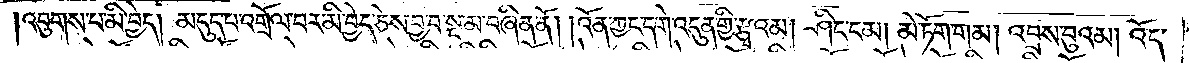འབུགས་པ་མི་བྱེད། མདུད་པ་འགྲོལ་བར་མི་བྱེད་ཅེས་བྱ་བ་སྔ་མ་བཞིན་ནོ། །འོན་ཀྱང་དགེ་འདུན་གྱི་རྩྭའམ། ཤིང་ངམ། མེ་ཏོག་གམ། འབྲས་བུའམ། འོད་
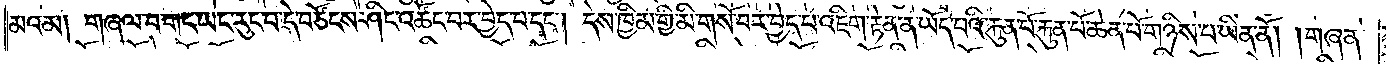མའམ། གཞལ་བ་གང་ཡང་རུང་བ་དེ་བཙོངས་ཤིང་འཚོང་བར་བྱེད་པ་དང༌། དེས་ཁྱིམ་གྱི་མི་གསོ་བར་བྱེད་པ་འཇིག་རྟེན་ན་ཡོད་པའི་རྐུན་པོ་རྐུན་པོ་ཆེན་པོ་གཉིས་པ་ཡིན་ནོ། །གཞན་
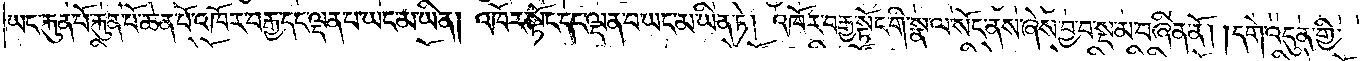ཡང་རྐུན་པོ་རྐུན་པོ་ཆེན་པོ་འཁོར་བརྒྱ་དང་ལྡན་པ་ཡང་མ་ཡིན། འཁོར་སྟོང་དང་ལྡན་པ་ཡང་མ་ཡིན་ཏེ། འཁོར་བརྒྱ་སྟོང་གི་སྣ་ལ་སོང་ནས་ཞེས་བྱ་བ་སྔ་མ་བཞིན་ནོ། །དགེ་འདུན་གྱི་
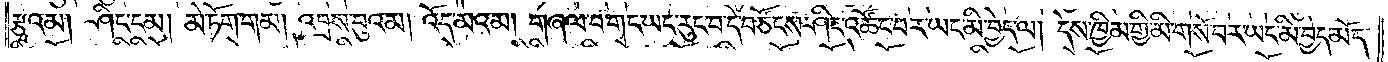རྩྭའམ། ཤིང་ངམ། མེ་ཏོག་གམ། འབྲས་བུའམ། འོད་མའམ། གཞལ་བ་གང་ཡང་རུང་བ་དེ་བཙོངས་ཤིང་འཚོང་བར་ཡང་མི་བྱེད་ལ། དེས་ཁྱིམ་གྱི་མི་གསོ་བར་ཡང་མི་བྱེད་མོད་
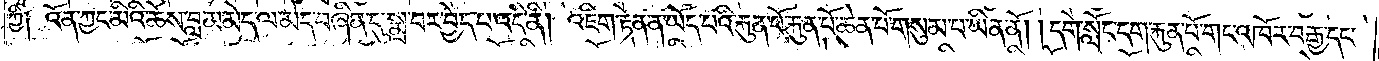ཀྱི༑ འོན་ཀྱང་མིའི་ཆོས་བླ་མ་མེད་ལ་མེད་བཞིན་དུ་སྨྲ་བར་བྱེད་པ་འདི་ནི། འཇིག་རྟེན་ན་ཡོད་པའི་རྐུན་པོ་རྐུན་པོ་ཆེན་པོ་གསུམ་པ་ཡིན་ནོ། །དགེ་སློང་དག་རྐུན་པོ་གང་འཁོར་བརྒྱ་དང་
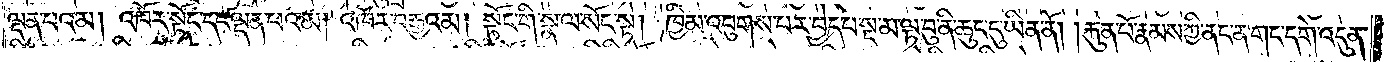ལྡན་པའམ། འཁོར་སྟོང་དང་ལྡན་པའམ། འཁོར་བརྒྱའམ། སྟོང་གི་སྣ་ལ་སོང་སྟེ། ཁྱིམ་འབུགས་པར་བྱེད་པ་སྔ་མ་ལྟ་བུ་ནི་ཆུང་ངུ་ཡིན་ནོ། །རྐུན་པོ་རྣམས་ཀྱི་ནང་ན་གང་དགེ་འདུན་
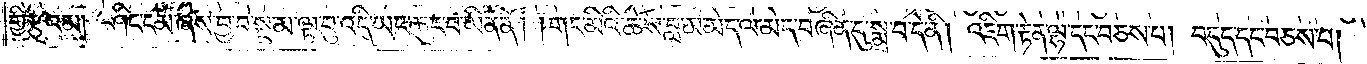གྱི་རྩྭའམ། ཤིང་ངམ་ཞེས་བྱ་བ་སྔ་མ་ལྟ་བུ་འདི་ཡང་ཆུང་བ་ཡིན་ནོ། །གང་མིའི་ཆོས་བླ་མ་མེད་ལ་མེད་བཞིན་དུ་སྨྲ་བ་དེ་ནི། འཇིག་རྟེན་ལྷ་དང་བཅས་པ། བདུད་དང་བཅས་པ།
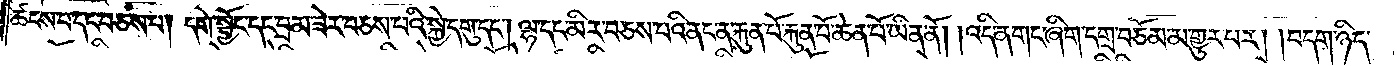ཚངས་པ་དང་བཅས་པ། དགེ་སྦྱོང་དང་བྲམ་ཟེར་བཅས་པའི་སྐྱེ་དགུ་དང༌། ལྷ་དང་མིར་བཅས་པའི་ནང་ན་རྐུན་པོ་རྐུན་པོ་ཆེན་པོ་ཡིན་ནོ། །འདི་ན་གང་ཞིག་དགྲ་བཅོམ་མ་གྱུར་པར། །བདག་ཉིད་
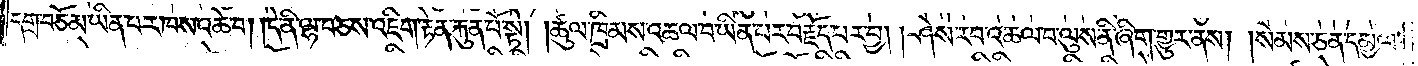དགྲ་བཅོམ་ཡིན་པར་ཁས་འཆེ་བ། །དེ་ནི་ལྷ་བཅས་འཇིག་རྟེན་རྐུན་པོ་སྟེ། །ཚུལ་ཁྲིམས་འཆལ་བ་ཡིན་པར་བརྗོད་པར་བྱ། །ཤེས་རབ་འཆལ་བ་ལུས་ནི་ཞིག་གྱུར་ནས། །སེམས་ཅན་དམྱལ་
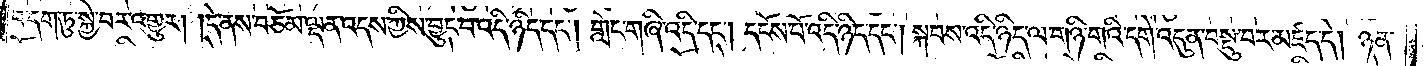བ་དག་ཏུ་སྐྱེ་བར་འགྱུར། །དེ་ནས་བཅོམ་ལྡན་འདས་ཀྱིས་བྱུང་བ་འདི་ཉིད་དང༌། གླེང་གཞི་འདི་དང༌། དངོས་པོ་འདི་ཉིད་དང༌། སྐབས་འདི་ཉིད་ལ་གཉི་གའི་དགེ་འདུན་བསྡུ་བར་མཛད་དེ། ཉན་
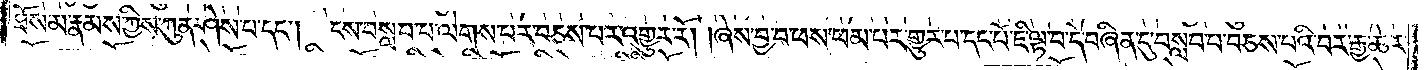ཐོས་མ་རྣམས་ཀྱིས་ཀུན་ཤེས་པ་དང༌། ངས་བསླབ་པ་ལེགས་པར་བཅས་པར་འགྱུར་རོ། །ཞེས་བྱ་བ་ཕས་ཕམ་པར་གྱུར་པ་དང་པོ་ཇི་ལྟ་བ་དེ་བཞིན་དུ་བསླབ་པ་བཅས་པའི་བར་རྒྱ་ཆེར་
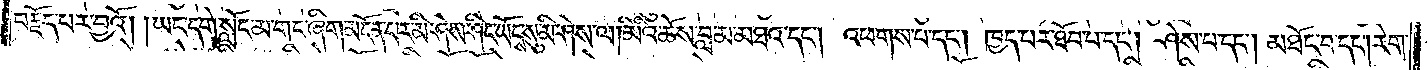བརྗོད་པར་བྱའོ། །ཡང་དགེ་སློང་མ་གང་ཞིག་མངོན་པར་མི་ཤེས་ཤིང་ཡོངས་སུ་མི་ཤེས་ལ། མིའི་ཆོས་བླ་མ་མཐའ་དང༌། འཕགས་པ་དང༌། ཁྱད་པར་ཐོབ་པ་དང༌། ཤེས་པ་དང༌། མཐོང་བ་དང༌། རེག་
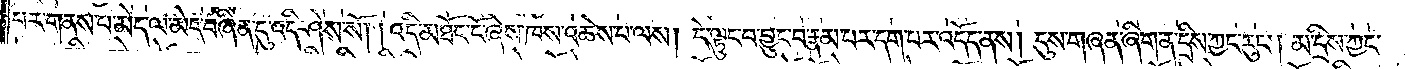པར་གནས་པ་མེད་ལ་མེད་བཞིན་དུ་འདི་ཤེས་སོ། །འདི་མཐོང་ངོ་ཞེས་ཁས་འཆེས་པ་ལས། དེ་ལྟུང་བ་བྱུང་བ་རྣམ་པར་དག་པར་འདོད་ནས། དུས་གཞན་ཞིག་ན་དྲིས་ཀྱང་རུང༌། མ་དྲིས་ཀྱང་
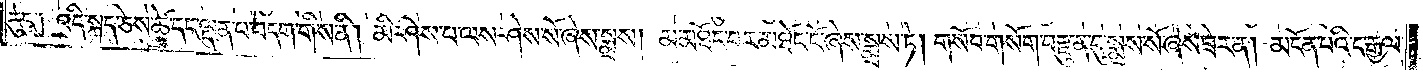རུང་༑ འདི་སྐད་ཅེས་ཚེ་དང་ལྡན་པ་བདག་གིས་ནི། མི་ཤེས་པ་ལས་ཤེས་སོ་ཞེས་སྨྲས། མ་མཐོང་བར་མཐོང་ངོ་ཞེས་སྨྲས་ཏེ། གསོབ་གསོག་བརྫུན་དུ་སྨྲས་སོ་ཞེས་ཟེར་ན། མངོན་པའི་ང་རྒྱལ་
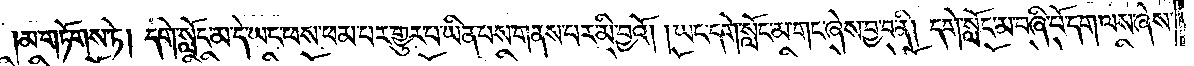མ་གཏོགས་ཏེ། དགེ་སློང་མ་དེ་ཡང་ཕས་ཕམ་པར་གྱུར་པ་ཡིན་པས་གནས་པར་མི་བྱའོ། །ཡང་དགེ་སློང་མ་གང་ཞེས་བྱ་བ་ནི། དགེ་སློང་མ་བཞི་པོ་དག་ལས་ཞེས་
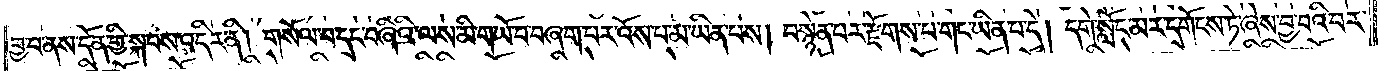བྱ་བ་ནས་དོན་གྱི་སྐབས་འདིར་ནི། གསོལ་བ་དང་བཞིའི་ལས་མི་གཡོ་བ་བཞག་པར་འོས་པ་མ་ཡིན་པས། བསྙེན་པར་རྫོགས་པ་གང་ཡིན་པ་དེ། དགེ་སློང་མར་དགོངས་ཏེ་ཞེས་བྱ་བའི་བར་
